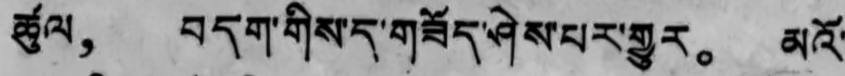ཚུལ， བདག་གིས་ད་གཟོད་ཤེས་པར་གྱུར。 མའོ་
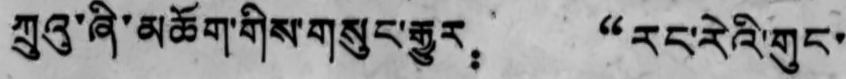ཀྲུའུ་ཞི་མཆོག་གིས་གསུང་རྒྱུར： “རང་རེའི་གུང་
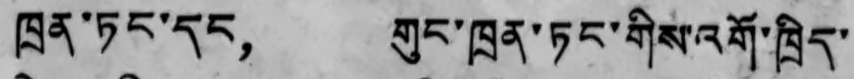ཁྲན་ཏང་དང， གུང་ཁྲན་ཏང་གིས་འགོ་ཁྲིད་
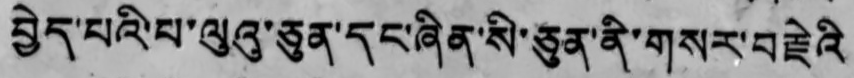བྱེད་པའི་པ་ལུའུ་ཅུན་དང་ཞིན་སི་ཅུན་ནི་གསར་བརྗེའི
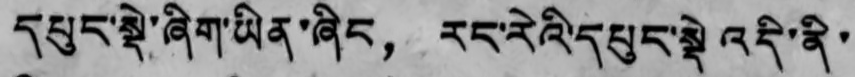དཔུང་སྡེ་ཞིག་ཡིན་ཞིང， རང་རེའི་དཔུང་སྡེ འདི་ནི་
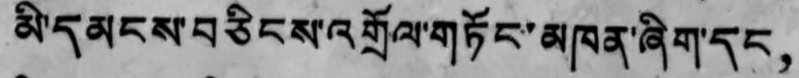མི་དམངས་བཅིངས་འགྲོལ་གཏོང་མཁན་ཞིག་དང，
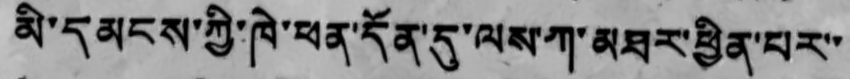མི་དམངས་ཀྱི་ཁེ་ཕན་དོན་དུ་ལས་ཀ་མཐར་ཕྱིན་པར་་
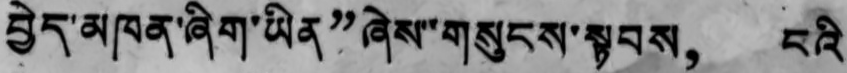བྱེད་མཁན་ཞིག་ཡིན”ཞེས་གསུངས་སྟབས， ངའི
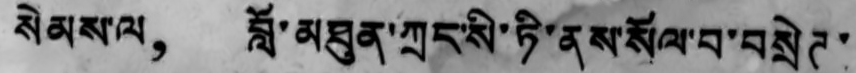སེམས་ལ， བློ་མཐུན་ཀྲང་སི་ཏི་ནས་སོལ་བ་བསྲེཊ་
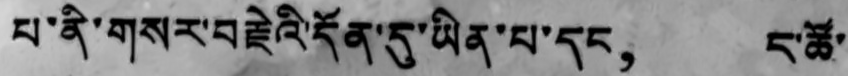པ་ནི་གསར་བརྗེའི་དོན་དུ་ཡིན་པ་དང， ང་ཚོ་
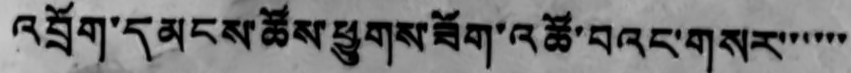འབྲོག་དམངས་ཚོས་ཕྱུགས་ཟོག་འཚོ་བའང་གསར་་་་་་
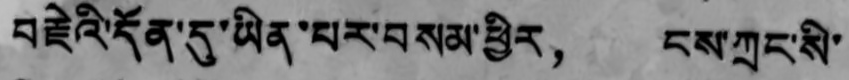བརྗེའི་དོན་དུ་ཡིན་པར་བསམ་ཕྱིར， ངས་ཀྲུང་སི་
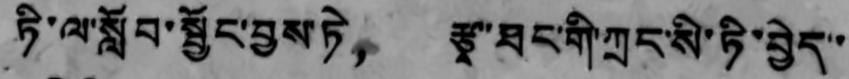ཏི་ལ་སློབ་སྦྱོང་བྱས་ཏེ， རྩྭ་ཐང་གི་ཀྲང་སི་ཏི་བྱེད་་
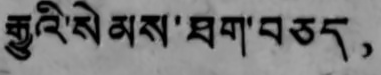རྒྱུའི་སེམས་ཐག་བཅད。
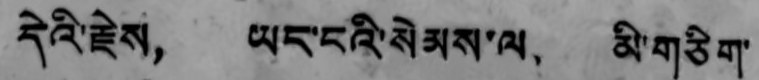དེའི་རྗེས， ཡང་ངའི་སེམས་ལ， མི་གཅིག
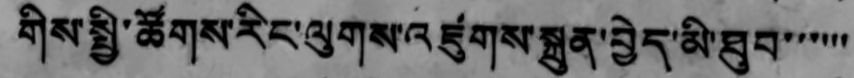གིས་སྤྱི་ཚོགས་རིང་ལུགས་འཛུགས་སྐྲུན་བྱེད་མི་ཐུབ་་་་་་
